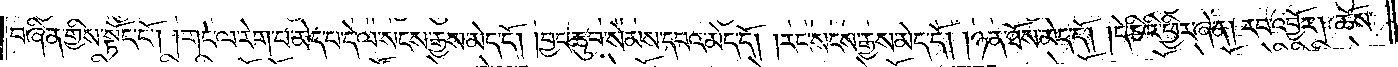བཞིན་གྱིས་སྟོང་ངོ༌། །གང་ལ་རེག་པ་མེད་པ་དེ་ལ་སངས་རྒྱས་མེད་དོ། །བྱང་ཆུབ་སེམས་དཔའ་མེད་དོ། །རང་སངས་རྒྱས་མེད་དོ། །ཉན་ཐོས་མེད་དོ། །དེ་ཅིའི་ཕྱིར་ཞེ་ན། རབ་འབྱོར། ཆོས་
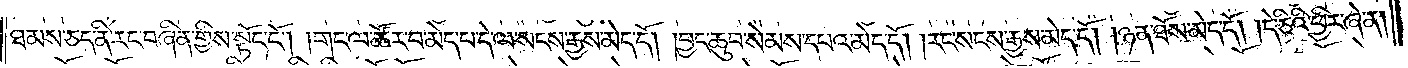ཐམས་ཅད་ནི་རང་བཞིན་གྱིས་སྟོང་ངོ༌། །གང་ལ་ཚོར་བ་མེད་པ་དེ་ལ་སངས་རྒྱས་མེད་དོ། །བྱང་ཆུབ་སེམས་དཔའ་མེད་དོ། །རང་སངས་རྒྱས་མེད་དོ། །ཉན་ཐོས་མེད་དོ། །དེ་ཅིའི་ཕྱིར་ཞེ་ན།
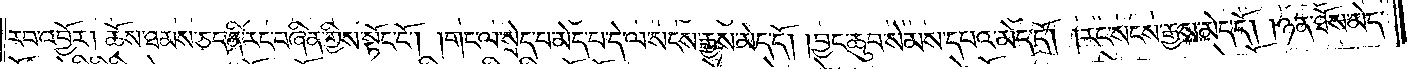རབ་འབྱོར། ཆོས་ཐམས་ཅད་ནི་རང་བཞིན་གྱིས་སྟོང་ངོ༌། །གང་ལ་སྲེད་པ་མེད་པ་དེ་ལ་སངས་རྒྱས་མེད་དོ། །བྱང་ཆུབ་སེམས་དཔའ་མེད་དོ། །རང་སངས་རྒྱས་མེད་དོ། །ཉན་ཐོས་མེད་
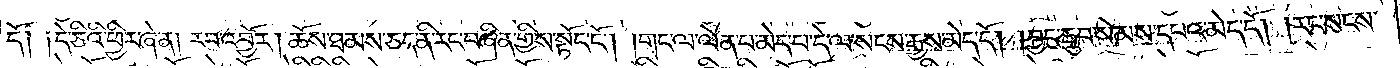དོ༑ ༑དེ་ཅིའི་ཕྱིར་ཞེ་ན། རབ་འབྱོར། ཆོས་ཐམས་ཅད་ནི་རང་བཞིན་གྱིས་སྟོང་ངོ༌། །གང་ལ་ལེན་པ་མེད་པ་དེ་ལ་སངས་རྒྱས་མེད་དོ། །བྱང་ཆུབ་སེམས་དཔའ་མེད་དོ། །རང་སངས་
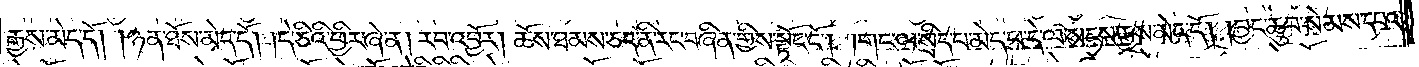རྒྱས་མེད་དོ། །ཉན་ཐོས་མེད་དོ། །དེ་ཅིའི་ཕྱིར་ཞེ་ན། རབ་འབྱོར། ཆོས་ཐམས་ཅད་ནི་རང་བཞིན་གྱིས་སྟོང་ངོ༌། །གང་ལ་སྲིད་པ་མེད་པ་དེ་ལ་སངས་རྒྱས་མེད་དོ། །བྱང་ཆུབ་སེམས་དཔའ་
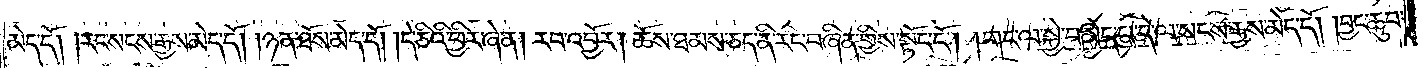མེད་དོ། །རང་སངས་རྒྱས་མེད་དོ། །ཉན་ཐོས་མེད་དོ། །དེ་ཅིའི་ཕྱིར་ཞེ་ན། རབ་འབྱོར། ཆོས་ཐམས་ཅད་ནི་རང་བཞིན་གྱིས་སྟོང་ངོ༌། །གང་ལ་སྐྱེ་བ་མེད་པ་དེ་ལ་སངས་རྒྱས་མེད་དོ། །བྱང་ཆུབ་
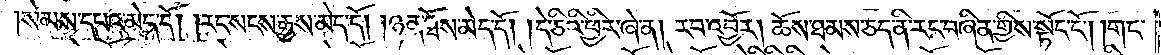སེམས་དཔའ་མེད་དོ། །རང་སངས་རྒྱས་མེད་དོ། །ཉན་ཐོས་མེད་དོ། །དེ་ཅིའི་ཕྱིར་ཞེ་ན། རབ་འབྱོར། ཆོས་ཐམས་ཅད་ནི་རང་བཞིན་གྱིས་སྟོང་ངོ༌། །གང་
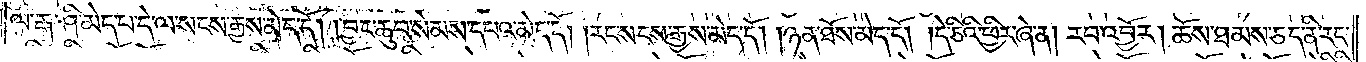ལ་རྒ་ཤི་མེད་པ་དེ་ལ་སངས་རྒྱས་མེད་དོ། །བྱང་ཆུབ་སེམས་དཔའ་མེད་དོ། །རང་སངས་རྒྱས་མེད་དོ། །ཉན་ཐོས་མེད་དོ། །དེ་ཅིའི་ཕྱིར་ཞེ་ན། རབ་འབྱོར། ཆོས་ཐམས་ཅད་ནི་རང་
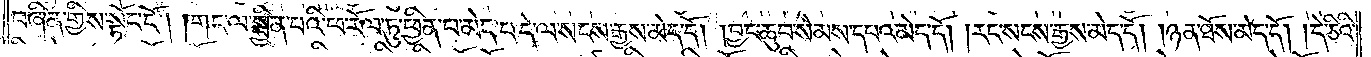བཞིན་གྱིས་སྟོང་ངོ༌། །གང་ལ་སྦྱིན་པའི་ཕ་རོལ་ཏུ་ཕྱིན་པ་མེད་པ་དེ་ལ་སངས་རྒྱས་མེད་དོ། །བྱང་ཆུབ་སེམས་དཔའ་མེད་དོ། །རང་སངས་རྒྱས་མེད་དོ། །ཉན་ཐོས་མེད་དོ། །དེ་ཅིའི་
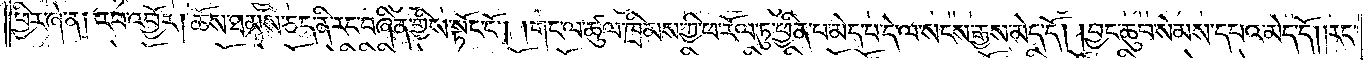ཕྱིར་ཞེ་ན༑ རབ་འབྱོར། ཆོས་ཐམས་ཅད་ནི་རང་བཞིན་གྱིས་སྟོང་ངོ༌། །གང་ལ་ཚུལ་ཁྲིམས་ཀྱི་ཕ་རོལ་ཏུ་ཕྱིན་པ་མེད་པ་དེ་ལ་སངས་རྒྱས་མེད་དོ། །བྱང་ཆུབ་སེམས་དཔའ་མེད་དོ། །རང་
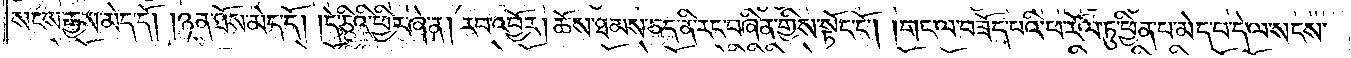སངས་རྒྱས་མེད་དོ། །ཉན་ཐོས་མེད་དོ། །དེ་ཅིའི་ཕྱིར་ཞེ་ན། རབ་འབྱོར། ཆོས་ཐམས་ཅད་ནི་རང་བཞིན་གྱིས་སྟོང་ངོ༌། །གང་ལ་བཟོད་པའི་ཕ་རོལ་ཏུ་ཕྱིན་པ་མེད་པ་དེ་ལ་སངས་
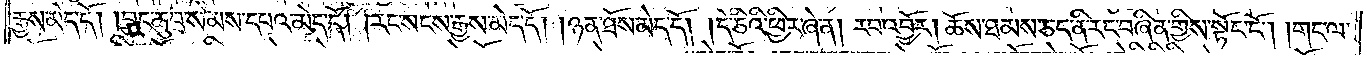རྒྱས་མེད་དོ། །བྱང་ཆུབ་སེམས་དཔའ་མེད་དོ། །རང་སངས་རྒྱས་མེད་དོ། །ཉན་ཐོས་མེད་དོ། །དེ་ཅིའི་ཕྱིར་ཞེ་ན། རབ་འབྱོར། ཆོས་ཐམས་ཅད་ནི་རང་བཞིན་གྱིས་སྟོང་ངོ༌། །གང་ལ་
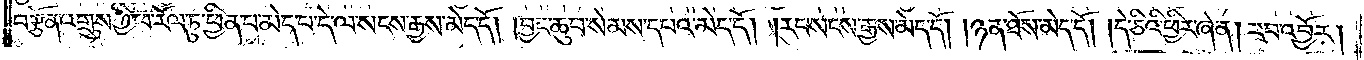བརྩོན་འགྲུས་ཀྱི་ཕ་རོལ་ཏུ་ཕྱིན་པ་མེད་པ་དེ་ལ་སངས་རྒྱས་མེད་དོ། །བྱང་ཆུབ་སེམས་དཔའ་མེད་དོ། །རང་སངས་རྒྱས་མེད་དོ། །ཉན་ཐོས་མེད་དོ། །དེ་ཅིའི་ཕྱིར་ཞེ་ན། རབ་འབྱོར།
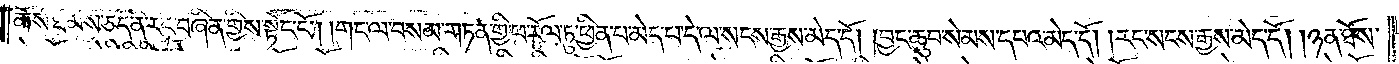ཆོས་ཐམས་ཅད་ནི་རང་བཞིན་གྱིས་སྟོང་ངོ༌། །གང་ལ་བསམ་གཏན་གྱི་ཕ་རོལ་ཏུ་ཕྱིན་པ་མེད་པ་དེ་ལ་སངས་རྒྱས་མེད་དོ། །བྱང་ཆུབ་སེམས་དཔའ་མེད་དོ། །རང་སངས་རྒྱས་མེད་དོ། །ཉན་ཐོས་
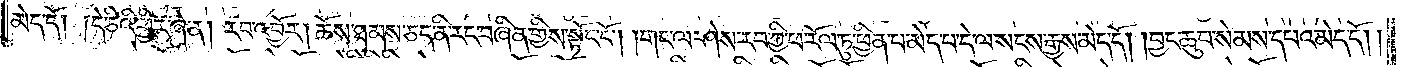མེད་དོ། །དེ་ཅིའི་ཕྱིར་ཞེ་ན། རབ་འབྱོར། ཆོས་ཐམས་ཅད་ནི་རང་བཞིན་གྱིས་སྟོང་ངོ༌། །གང་ལ་ཤེས་རབ་ཀྱི་ཕ་རོལ་ཏུ་ཕྱིན་པ་མེད་པ་དེ་ལ་སངས་རྒྱས་མེད་དོ། །བྱང་ཆུབ་སེམས་དཔའ་མེད་དོ། །
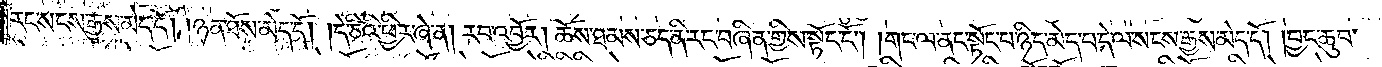རང་སངས་རྒྱས་མེད་དོ། །ཉན་ཐོས་མེད་དོ། །དེ་ཅིའི་ཕྱིར་ཞེ་ན། རབ་འབྱོར། ཆོས་ཐམས་ཅད་ནི་རང་བཞིན་གྱིས་སྟོང་ངོ༌། །གང་ལ་ནང་སྟོང་པ་ཉིད་མེད་པ་དེ་ལ་སངས་རྒྱས་མེད་དོ། །བྱང་ཆུབ་
